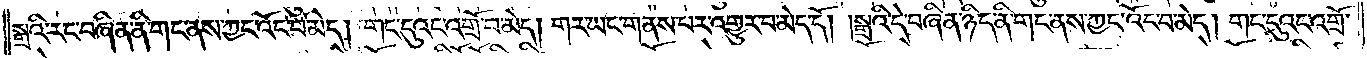སྒྲའི་རང་བཞིན་ནི་གང་ནས་ཀྱང་འོང་བ་མེད། གང་དུའང་འགྲོ་བ་མེད། གར་ཡང་གནས་པར་འགྱུར་བ་མེད་དོ། །སྒྲའི་དེ་བཞིན་ཉིད་ནི་གང་ནས་ཀྱང་འོང་བ་མེད། གང་དུའང་འགྲོ་
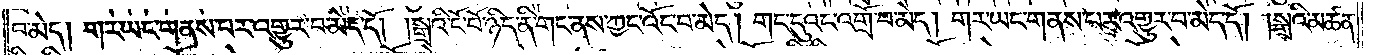བ་མེད། གར་ཡང་གནས་པར་འགྱུར་པ་མེད་དོ། །སྒྲའི་ངོ་བོ་ཉིད་ནི་གང་ནས་ཀྱང་འོང་བ་མེད། གང་དུའང་འགྲོ་བ་མེད། གར་ཡང་གནས་པར་འགྱུར་བ་མེད་དོ། །སྒྲའི་མཚན་
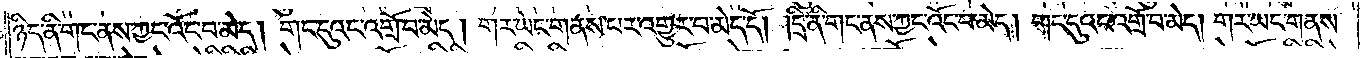ཉིད་ནི་གང་ནས་ཀྱང་འོང་བ་མེད། གང་དུའང་འགྲོ་བ་མེད། གར་ཡང་གནས་པར་འགྱུར་བ་མེད་དོ། །དྲི་ནི་གང་ནས་ཀྱང་འོང་བ་མེད། གང་དུའང་འགྲོ་བ་མེད། གར་ཡང་གནས་
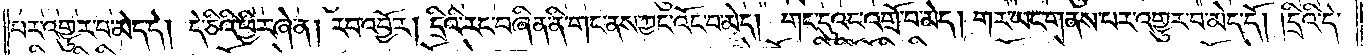པར་འགྱུར་བ་མེད་དེ། དེ་ཅིའི་ཕྱིར་ཞེ་ན། རབ་འབྱོར། དྲིའི་རང་བཞིན་ནི་གང་ནས་ཀྱང་འོང་བ་མེད། གང་དུའང་འགྲོ་བ་མེད། གར་ཡང་གནས་པར་འགྱུར་བ་མེད་དོ། །དྲིའི་དེ་
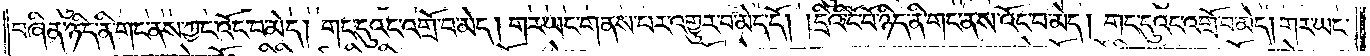བཞིན་ཉིད་ནི་གང་ནས་ཀྱང་འོང་བ་མེད། གང་དུའང་འགྲོ་བ་མེད། གར་ཡང་གནས་པར་འགྱུར་བ་མེད་དོ། །དྲིའི་ངོ་བོ་ཉིད་ནི་གང་ནས་ཀྱང་འོང་བ་མེད། གང་དུའང་འགྲོ་བ་མེད། གར་ཡང་
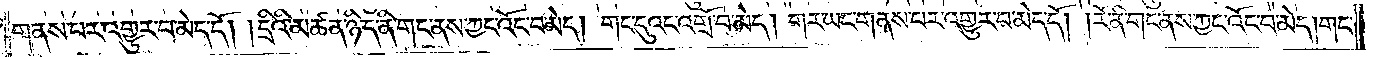གནས་པར་འགྱུར་བ་མེད་དོ། །དྲིའི་མཚན་ཉིད་ནི་གང་ནས་ཀྱང་འོང་བ་མེད། གང་དུའང་འགྲོ་བ་མེད། གར་ཡང་གནས་པར་འགྱུར་བ་མེད་དོ། །རོ་ནི་གང་ནས་ཀྱང་འོང་བ་མེད། གང་
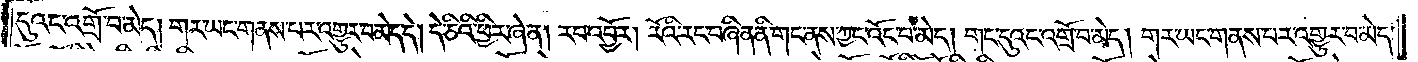དུའང་འགྲོ་བ་མེད། གར་ཡང་གནས་པར་འགྱུར་བ་མེད་དེ། དེ་ཅིའི་ཕྱིར་ཞེ་ན། རབ་འབྱོར། རོའི་རང་བཞིན་ནི་གང་ནས་ཀྱང་འོང་བ་མེད། གང་དུའང་འགྲོ་བ་མེད། གར་ཡང་གནས་པར་འགྱུར་བ་མེད་
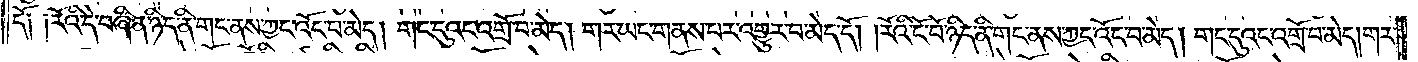དོ། །རོའི་དེ་བཞིན་ཉིད་ནི་གང་ནས་ཀྱང་འོང་བ་མེད། གང་དུའང་འགྲོ་བ་མེད། གར་ཡང་གནས་པར་འགྱུར་བ་མེད་དོ། །རོའི་ངོ་བོ་ཉིད་ནི་གང་ནས་ཀྱང་འོང་བ་མེད། གང་དུའང་འགྲོ་བ་མེད། གར་
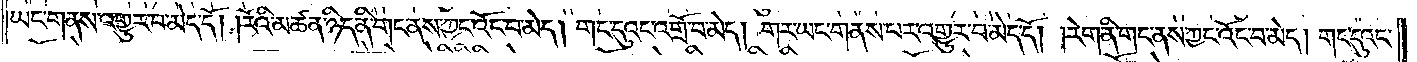ཡང་གནས་པར་འགྱུར་བ་མེད་དོ། །རོའི་མཚན་ཉིད་ནི་གང་ནས་ཀྱང་འོང་བ་མེད། གང་དུའང་འགྲོ་བ་མེད། གར་ཡང་གནས་པར་འགྱུར་བ་མེད་དོ། །རེག་ནི་གང་ནས་ཀྱང་འོང་བ་མེད། གང་དུའང་
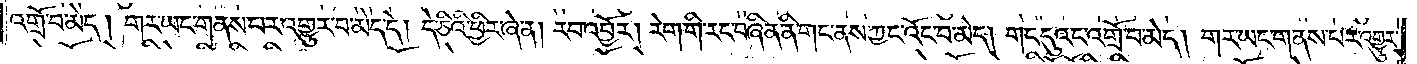འགྲོ་བ་མེད། གར་ཡང་གནས་པར་འགྱུར་བ་མེད་དེ། དེ་ཅིའི་ཕྱིར་ཞེ་ན། རབ་འབྱོར། རེག་གི་རང་བཞིན་ནི་གང་ནས་ཀྱང་འོང་བ་མེད། གང་དུའང་འགྲོ་བ་མེད། གར་ཡང་གནས་པར་འགྱུར་
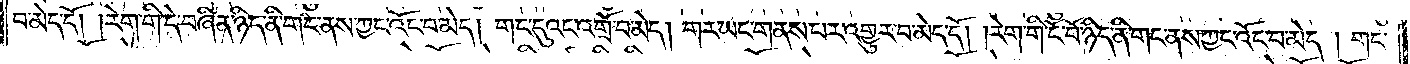བ་མེད་དོ། །རེག་གི་དེ་བཞིན་ཉིད་ནི་གང་ནས་ཀྱང་འོང་བ་མེད། གང་དུའང་འགྲོ་བ་མེད། གར་ཡང་གནས་པར་འགྱུར་བ་མེད་དོ། །རེག་གི་ངོ་བོ་ཉིད་ནི་གང་ནས་ཀྱང་འོང་བ་མེད། གང་
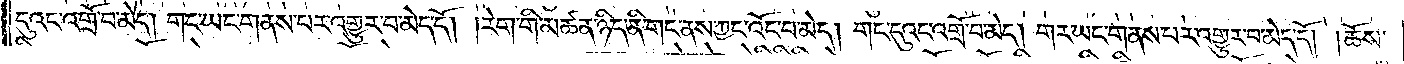དུའང་འགྲོ་བ་མེད། གང་ཡང་གནས་པར་འགྱུར་བ་མེད་དོ། །རེག་གི་མཚན་ཉིད་ནི་གང་ནས་ཀྱང་འོང་བ་མེད། གང་དུའང་འགྲོ་བ་མེད། གར་ཡང་གནས་པར་འགྱུར་བ་མེད་དོ། །ཆོས་
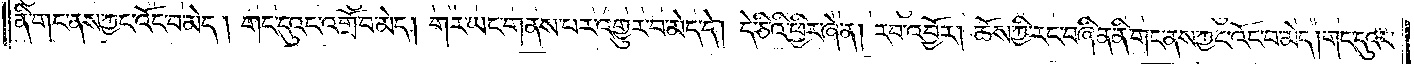ནི་གང་ནས་ཀྱང་འོང་བ་མེད། གང་དུའང་འགྲོ་བ་མེད། གར་ཡང་གནས་པར་འགྱུར་བ་མེད་དེ། དེ་ཅིའི་ཕྱིར་ཞེ་ན། རབ་འབྱོར། ཆོས་ཀྱི་རང་བཞིན་ནི་གང་ནས་ཀྱང་འོང་བ་མེད། གང་དུའང་
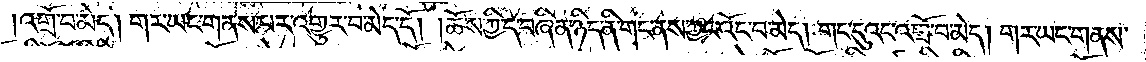འགྲོ་བ་མེད། གར་ཡང་གནས་པར་འགྱུར་བ་མེད་དོ། །ཆོས་ཀྱི་དེ་བཞིན་ཉིད་ནི་གང་ནས་ཀྱང་འོང་བ་མེད། གང་དུའང་འགྲོ་བ་མེད། གར་ཡང་གནས་
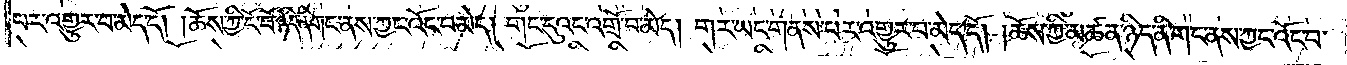པར་འགྱུར་བ་མེད་དོ། །ཆོས་ཀྱི་ངོ་བོ་ཉིད་ནི་གང་ནས་ཀྱང་འོང་བ་མེད། གང་དུའང་འགྲོ་བ་མེད། གར་ཡང་གནས་པར་འགྱུར་བ་མེད་དོ། །ཆོས་ཀྱི་མཚན་ཉིད་ནི་གང་ནས་ཀྱང་འོང་བ་
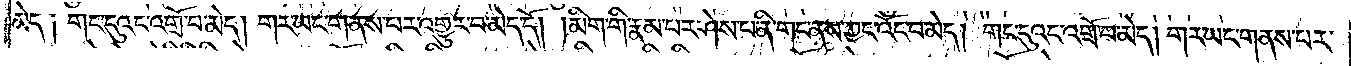མེད། གང་དུའང་འགྲོ་བ་མེད། གར་ཡང་གནས་པར་འགྱུར་བ་མེད་དོ། །མིག་གི་རྣམ་པར་ཤེས་པ་ནི་གང་ནས་ཀྱང་འོང་བ་མེད། གང་དུའང་འགྲོ་བ་མེད། གར་ཡང་གནས་པར་
